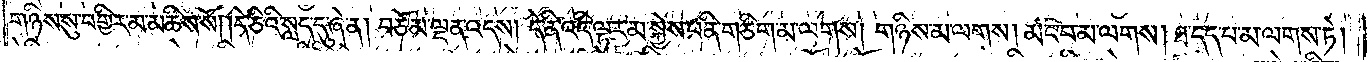གཉིས་སུ་བགྱིར་མ་མཆིས་སོ། །དེ་ཅིའི་སླད་དུ་ཞེ་ན། བཅོམ་ལྡན་འདས། དེ་ནི་འདི་ལྟར་མ་སྐྱེས་པ་ནི་གཅིག་མ་ལགས། གཉིས་མ་ལགས། མང་བ་མ་ལགས། ཐ་དད་པ་མ་ལགས་ཏེ།
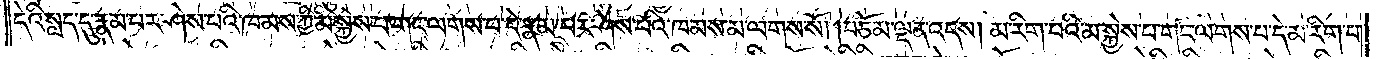དེའི་སླད་དུ་རྣམ་པར་ཤེས་པའི་ཁམས་ཀྱི་མ་སྐྱེས་པ་གང་ལགས་པ་དེ་རྣམ་པར་ཤེས་པའི་ཁམས་མ་ལགས་སོ། །བཅོམ་ལྡན་འདས། མ་རིག་པའི་མ་སྐྱེས་པ་གང་ལགས་པ་དེ་མ་རིག་པ་
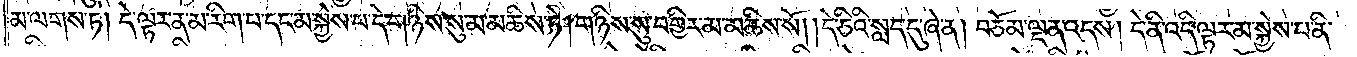མ་ལགས་ཏེ། དེ་ལྟར་ན་མ་རིག་པ་དང་མ་སྐྱེས་པ་དེ་གཉིས་སུ་མ་མཆིས་ཏེ། གཉིས་སུ་བགྱིར་མ་མཆིས་སོ། །དེ་ཅིའི་སླད་དུ་ཞེ་ན། བཅོམ་ལྡན་འདས། དེ་ནི་འདི་ལྟར་མ་སྐྱེས་པ་ནི་
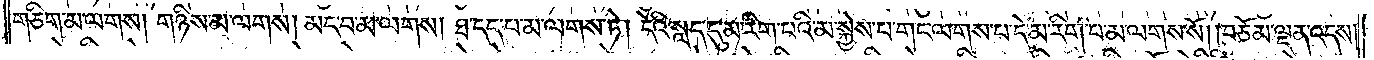གཅིག་མ་ལགས། གཉིས་མ་ལགས། མང་བ་མ་ལགས། ཐ་དད་པ་མ་ལགས་ཏེ། དེའི་སླད་དུ་མ་རིག་པའི་མ་སྐྱེས་པ་གང་ལགས་པ་དེ་མ་རིག་པ་མ་ལགས་སོ། །བཅོམ་ལྡན་འདས་
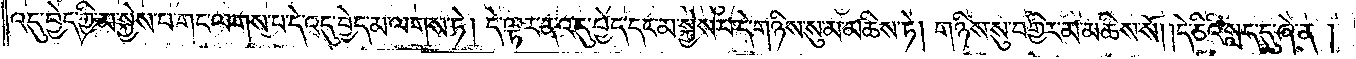འདུ་བྱེད་ཀྱི་མ་སྐྱེས་པ་གང་ལགས་པ་དེ་འདུ་བྱེད་མ་ལགས་ཏེ། དེ་ལྟར་ན་འདུ་བྱེད་དང་མ་སྐྱེས་པ་དེ་གཉིས་སུ་མ་མཆིས་ཏེ། གཉིས་སུ་བགྱིར་མ་མཆིས་སོ། །དེ་ཅིའི་སླད་དུ་ཞེ་ན།
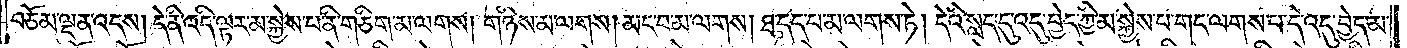བཅོམ་ལྡན་འདས། དེ་ནི་འདི་ལྟར་མ་སྐྱེས་པ་ནི་གཅིག་མ་ལགས། གཉིས་མ་ལགས། མང་བ་མ་ལགས། ཐ་དད་པ་མ་ལགས་ཏེ། དེའི་སླད་དུ་འདུ་བྱེད་ཀྱི་མ་སྐྱེས་པ་གང་ལགས་པ་དེ་འདུ་བྱེད་མ་
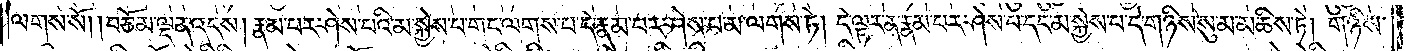ལགས་སོ། །བཅོམ་ལྡན་འདས། རྣམ་པར་ཤེས་པའི་མ་སྐྱེས་པ་གང་ལགས་པ་དེ་རྣམ་པར་ཤེས་པ་མ་ལགས་ཏེ། དེ་ལྟར་ན་རྣམ་པར་ཤེས་པ་དང་མ་སྐྱེས་པ་དེ་གཉིས་སུ་མ་མཆིས་ཏེ། གཉིས་
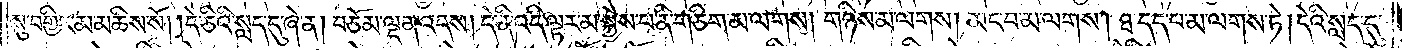སུ་བགྱིར་མ་མཆིས་སོ། །དེ་ཅིའི་སླད་དུ་ཞེ་ན། བཅོམ་ལྡན་འདས། དེ་ནི་འདི་ལྟར་མ་སྐྱེས་པ་ནི་གཅིག་མ་ལགས། གཉིས་མ་ལགས། མང་བ་མ་ལགས། ཐ་དད་པ་མ་ལགས་ཏེ། དེའི་སླད་དུ་
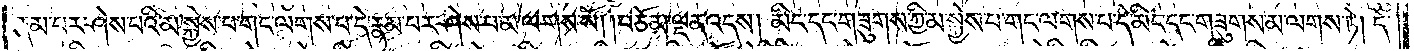རྣམ་པར་ཤེས་པའི་མ་སྐྱེས་པ་གང་ལགས་པ་དེ་རྣམ་པར་ཤེས་པ་མ་ལགས་སོ། །བཅོམ་ལྡན་འདས། མིང་དང་གཟུགས་ཀྱི་མ་སྐྱེས་པ་གང་ལགས་པ་དེ་མིང་དང་གཟུགས་མ་ལགས་ཏེ། དེ་
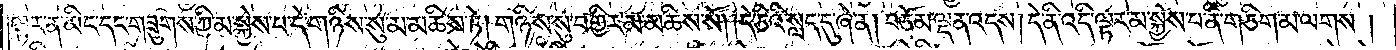ལྟར་ན་མིང་དང་གཟུགས་ཀྱི་མ་སྐྱེས་པ་དེ་གཉིས་སུ་མ་མཆིས་ཏེ། གཉིས་སུ་བགྱིར་མ་མཆིས་སོ། །དེ་ཅིའི་སླད་དུ་ཞེ་ན། །བཅོམ་ལྡན་འདས་དེ་ནི་འདི་ལྟར་མ་སྐྱེས་པ་ནི་གཅིག་མ་ལགས།
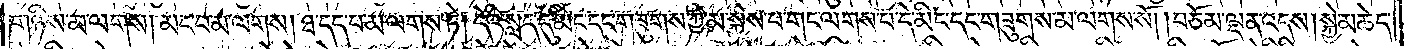གཉིས་མ་ལགས། མང་པ་མ་ལགས། ཐ་དད་པ་མ་ལགས་ཏེ། དེའི་སླད་དུ་མིང་དང་གཟུགས་ཀྱི་མ་སྐྱེས་པ་གང་ལགས་པ་དེ་མིང་དང་གཟུགས་མ་ལགས་སོ། །བཅོམ་ལྡན་འདས། སྐྱེ་མཆེད་
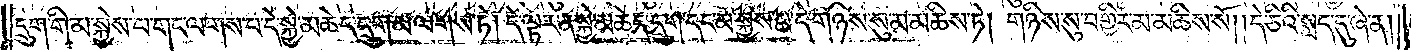དུག་གི་མ་སྐྱེས་པ་གང་ལགས་པ་དེ་སྐྱེ་མཆེད་དྲུག་མ་ལགས་ཏེ། དེ་ལྟར་ན་སྐྱེ་མཆེད་དྲུག་དང་མ་སྐྱེས་པ་དེ་གཉིས་སུ་མ་མཆིས་ཏེ་གཉིས་སུ་བགྱིར་མ་མཆིས་སོ། །དེ་ཅིའི་སླད་དུ་ཞེ་ན།
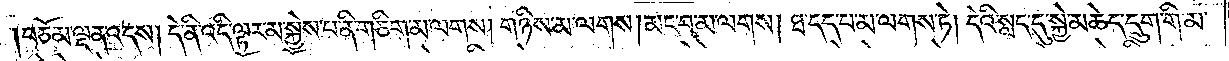བཅོམ་ལྡན་འདས། དེ་ནི་འདི་ལྟར་མ་སྐྱེས་པ་ནི་གཅིག་མ་ལགས། གཉིས་མ་ལགས། མང་བ་མ་ལགས། ཐ་དད་པ་མ་ལགས་ཏེ། དེའི་སླད་དུ་སྐྱེ་མཆེད་དྲུག་གི་མ་
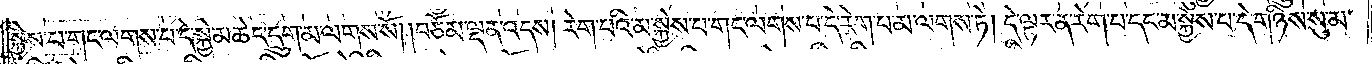སྐྱེས་པ་གང་ལགས་པ་དེ་སྐྱེ་མཆེད་དྲུག་མ་ལགས་སོ། །བཅོམ་ལྡན་འདས། རེག་པའི་མ་སྐྱེས་པ་གང་ལགས་པ་དེ་རེག་པ་མ་ལགས་ཏེ། དེ་ལྟར་ན་རེག་པ་དང་མ་སྐྱེས་པ་དེ་གཉིས་སུ་མ་
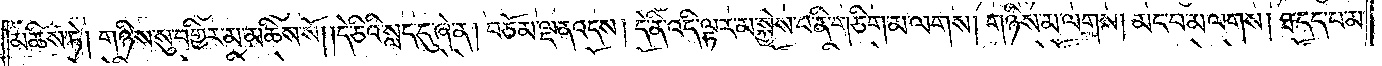མཆིས་ཏེ། གཉིས་སུ་བགྱིར་མ་མཆིས་སོ། །དེ་ཅིའི་སླད་དུ་ཞེ་ན། བཅོམ་ལྡན་འདས། དེ་ནི་འདི་ལྟར་མ་སྐྱེས་པ་ནི་གཅིག་མ་ལགས། གཉིས་མ་ལགས། མང་བ་མ་ལགས། ཐ་དད་པ་མ་
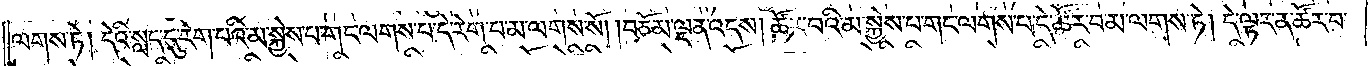ལགས་ཏེ། དེའི་སླད་དུ་རེག་པའི་མ་སྐྱེས་པ་གང་ལགས་པ་དེ་རེག་པ་མ་ལགས་སོ། །བཅོམ་ལྡན་འདས། ཚོར་བའི་མ་སྐྱེས་པ་གང་ལགས་པ་དེ་ཚོར་བ་མ་ལགས་ཏེ། དེ་ལྟར་ན་ཚོར་བ་
